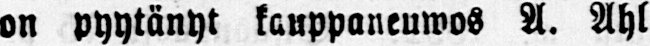on pyytänyt kauppaneuwos A. Ahl-
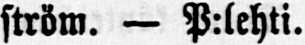ström. — P:lehti.
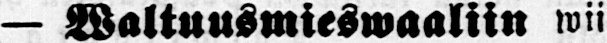— Waltuusmieswaaliin wii-
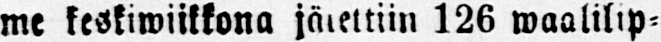me keskiwiikkona jätettiin 126 waalilip-
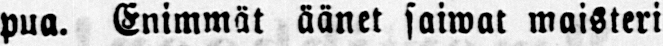pua. Enimmät äänet saiwat maisteri
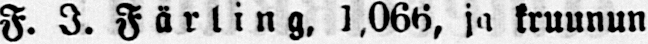F. J. Färling, 1,066, ja kruunun-
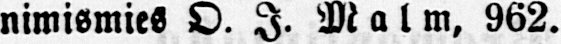nimismies O. I. Malm, 962.
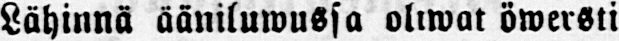Lähinnä ääniluwussa oliwat öwersti
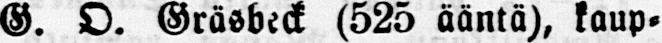G. O. Gräsbeck (525 ääntä), kaup-
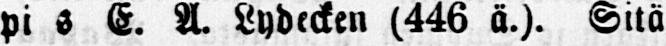pi s E. A. Lydecken (446 ä.). Sitä
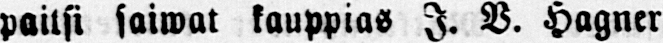paitsi saiwat kauppias I. V. Hagner
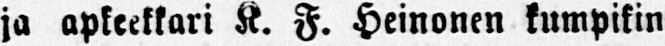ja apkeekkari K. F. Heinonen kumpikin
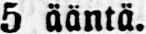5 ääntä.
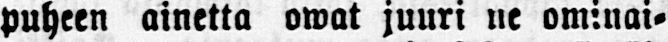puheen ainetta owat juuri ne ominai-
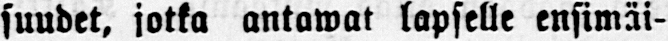suudet, jotka antawat lapselle ensimäi-
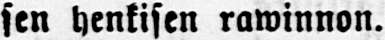sen henkisen rawinnon.
